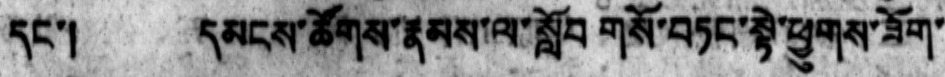དང་།  དམངས་ཚོགས་རྣམས་ལ་སློབ་གསོ་བཏང་སྟེ་ཕྱུགས་ཟོག་
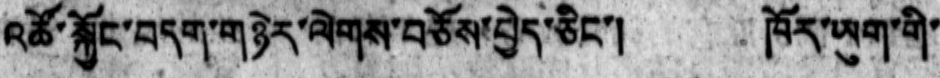འཚོ་སྐྱོང་བདག་གཉེར་ལེགས་བཅོས་བྱེད་ཅིང་།  ཁོར་ཡུག་གི་
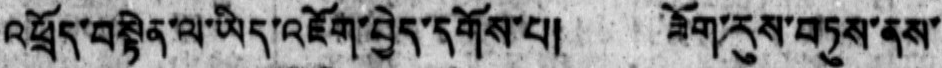འཕྲོད་བསྟེན་ལ་ཡིད་འཇོག་བྱེད་དགོས་པ།  ཟོག་རུས་བཏུས་ནས་
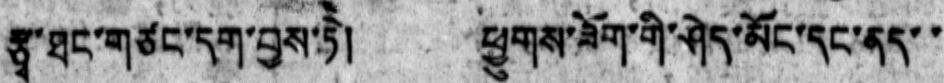རྩྭ་ཐང་གཙང་དག་བྱས་ཏེ། ཕྱུགས་ཟོག་གི་ཤེད་མོང་དང་ནད་་
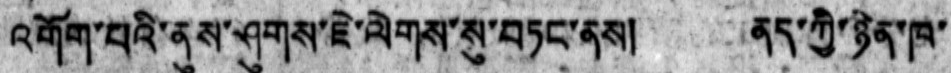འགོག་པའི་ནུས་ཤུགས་ཇེ་ལེགས་སུ་བཏང་ནས། ནད་ཀྱི་ཉིན་ཁ་
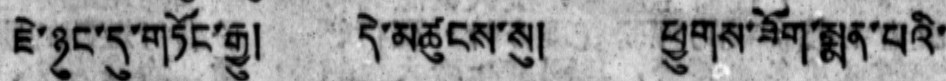ཇེ་ཉུང་དུ་གཏོང་རྒྱུ། དེ་མཚུངས་སུ། ཕྱུགས་ཟོག་སྨན་པའི་
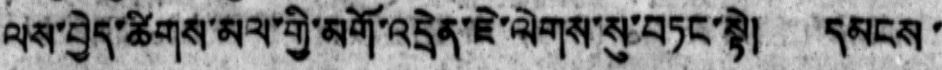ལས་བྱེད་ཚིགས་མལ་གྱི་མགོ་འདྲེན་ཇེ་ལེགས་སུ་བཏང་སྟེ།  དམངས་
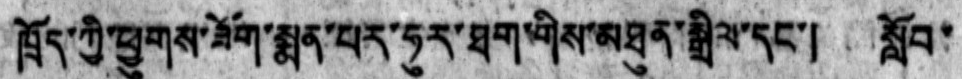ཁྲོད་ཀྱི་ཕྱུགས་ཟོག་སྨན་པར་ཧུར་ཐག་གིས་མཐུན་སྒྲིལ་དང་། སློབ་
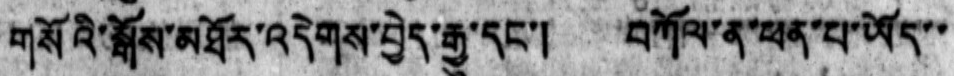གསོའི་སྒོས་མཐོར་འདེགས་བྱེད་རྒྱུ་དང་། བཀོལ་ན་ཕན་པ་ཡོད་་
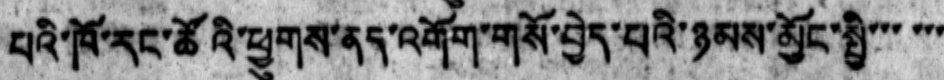པའི་ཁོ་རང་ཚོའི་ཕྱུགས་ནད་འགོག་གསོ་བྱེད་པའི་ཉམས་མྱོང་སྱི་་་་་་
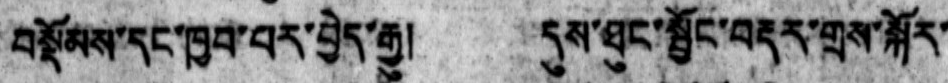བསྡོམས་དང་ཁྱབ་པར་བྱེད་རྒྱུ། དུས་ཐུང་སྦྱོང་བརྡར་གྲས་སྐོར་
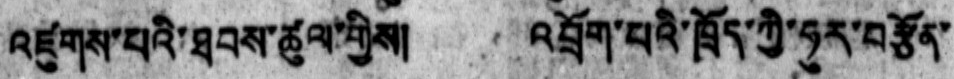འཛུགས་པའི་ཐབས་ཚུལ་གྱིས། འབྲོག་པའི་ཁྲོད་ཀྱི་ཧུར་བརྩོན་
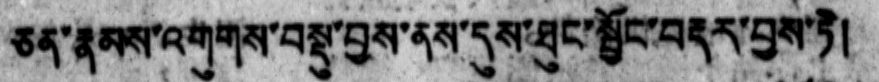ཅན་རྣམས་འགུགས་བསྡུ་བྱས་ནས་དུས་ཐུང་སྦྱོང་བརྡར་བྱས་ཏེ།
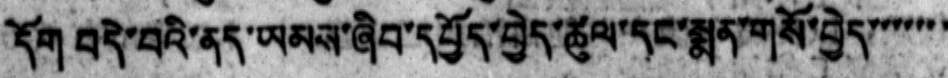དོག བདེ་བའི་ནད་ཡམས་ཞིབ་དཔྱོད་བྱེད་ཚུལ་དང་སྨན་གས་བྱད་་་་་་་
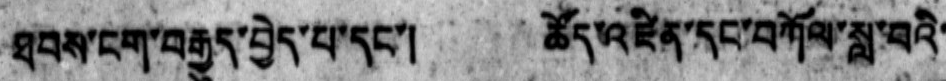ཐབས་ངག་བརྒྱུད་བྱེད་པ་དང་། ཚོད་འཛིན་དང་བཀོལ་སླ་བའི་
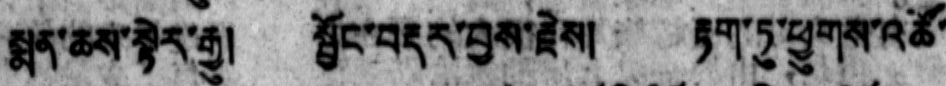སྨན་ཆས་སྟེར་རྒྱུ། སྦྱོང་བརྡར་བྱས་རྗེས། རྟག་ཏུ་ཕྱུགས་འཚོ་
